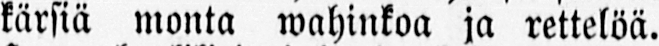kärsiä monta wahinkoa ja rettelöä.
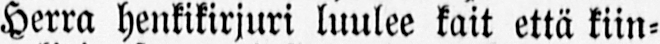Herra henkikirjuri luulee kait että kiin-
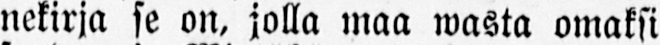nekirja se on, jolla maa wasta omaksi
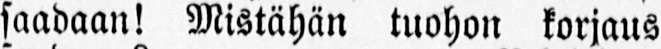saadaan! Mistähän tuohon korjaus
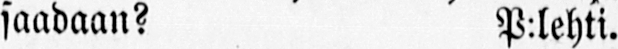saadaan? P:lehti.
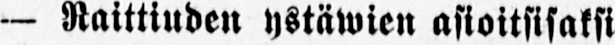— Raittiuden ystäwien asioitsisaksi
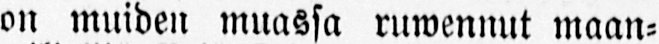on muiden muassa ruwennut maan-
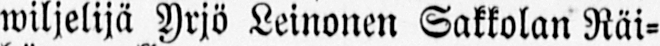wiljelijä Yrjö Leinonen Sakkolan Räi-
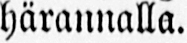härannalla.
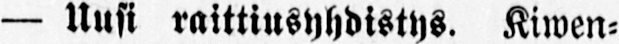— Uusi raittiusyhdistys. Kiwen-
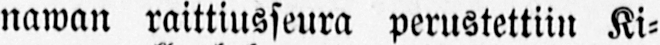naiwan raittiusseura perustettiin Ki-
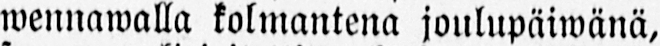wennawalla kolmantena joulupäiwänä,
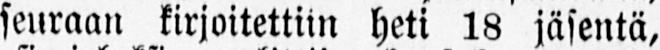seuraan kirjoitettiin heti 18 jäsentä,
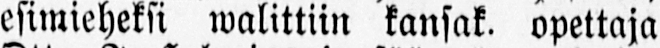esimieheksi walittiin kansak. opettaja
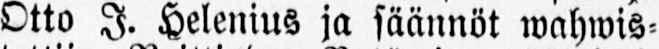Otto I. Helenius ja säännöt wahwis-
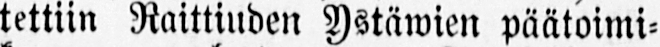tettiin Raittiuden Ystäwien päätoimi-
